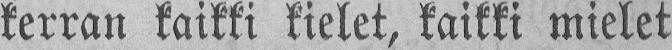kerran kaikki kielet, kaikki mielet
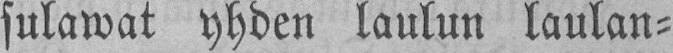sulawat yhden laulun laulan-
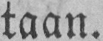taan.
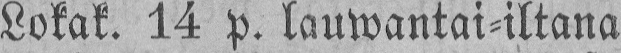Lokak. 14 p. lauwantai-iltana
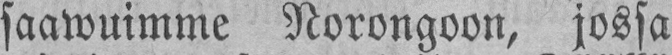saawuimme Norongoon, jossa
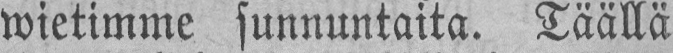wietimme sunnuntaita. Täällä
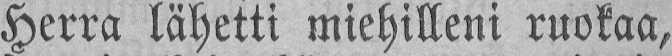Herra lähetti miehilleni ruokaa,
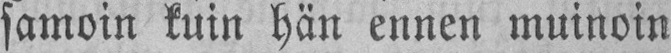samoin kuin hän ennen muinoin
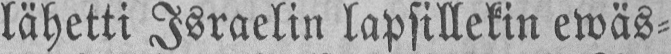lähetti Israelin lapsillekin ewäs-
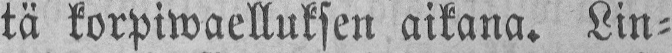tä korpiwaelluksen aikana. Lin-
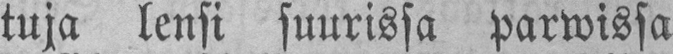tuja lensi suurissa parwissa
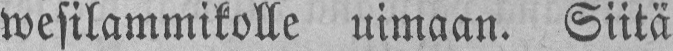wesilammikolle uimaan. Siitä
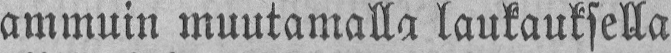ammuin muutamalla laukauksella
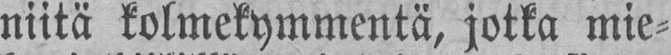niitä kolmekymmentä, jotka mie-
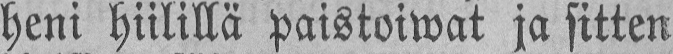heni hiilillä paistoiwat ja sitten
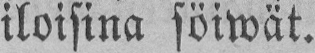iloisina söiwät.
